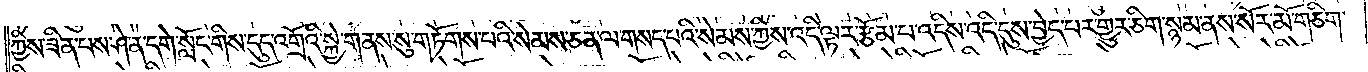ཀྱིས་ཟིན་པས་ཤེ་ན་དགེ་སློང་གིས་དུད་འགྲོའི་སྐྱེ་གནས་སུ་གཏོགས་པའི་སེམས་ཅན་ལ་གསད་པའི་སེམས་ཀྱིས་འདི་ལྟར་རྩོམ་པ་འདིས་འདི་དུས་བྱེད་པར་གྱུར་ཅིག་སྙམ་ནས་སོར་མོ་གཅིག་
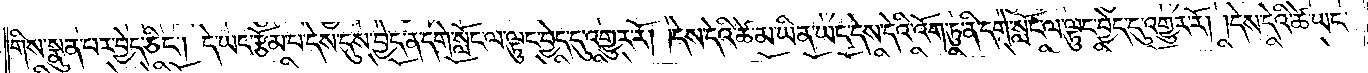གིས་སྣུན་པར་བྱེད་ཅིང༌། དེ་ཡང་རྩོམ་པ་དེས་དུས་བྱེད་ན་དགེ་སློང་ལ་ལྟུང་བྱེད་དུ་འགྱུར་རོ། །དེས་དེའི་ཚེ་མ་ཡིན་ཡང་དེས་དེའི་འོག་ཏུ་ནི་དགེ་སློང་ལ་ལྟུང་བྱེད་དུ་འགྱུར་རོ། །དེས་དེའི་ཚེ་ཡང་
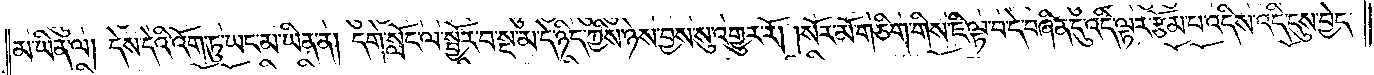མ་ཡིན་ལ། དེས་དེའི་འོག་ཏུ་ཡང་མ་ཡིན་ན། དགེ་སློང་ལ་སྦྱོར་བ་སྔ་མ་དེ་ཉིད་ཀྱིས་ཉེས་བྱས་སུ་འགྱུར་རོ། །སོར་མོ་གཅིག་གིས་ཇི་ལྟ་བ་དེ་བཞིན་དུ་འདི་ལྟར་རྩོམ་པ་འདིས་འདི་དུས་བྱེད་
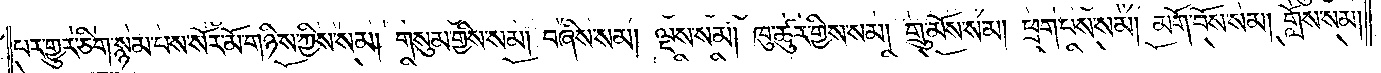པར་གྱུར་ཅིག་སྙམ་པས་སོར་མོ་གཉིས་ཀྱིས་སམ། གསུམ་གྱིས་སམ། བཞིས་སམ། ལྔས་སམ། ཁུ་ཚུར་གྱིས་སམ། གྲུ་མོས་སམ། ཕྲག་པས་སམ། མགོ་བོས་སམ། གློས་སམ།
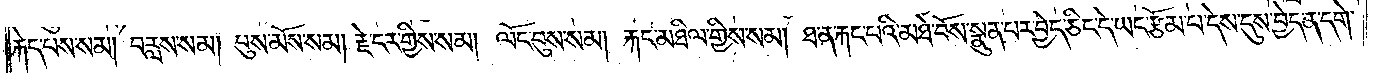རྐེད་པས་སམ། བརླས་སམ། པུས་མོས་སམ། རྗེ་ངར་གྱིས་སམ། ལོང་བུས་སམ། རྐང་མཐིལ་གྱིས་སམ། ཐ་ན་རྐང་པའི་མཐེ་བོས་སྣུན་པར་བྱེད་ཅིང་དེ་ཡང་རྩོམ་པ་དེས་དུས་བྱེད་ན་དགེ་
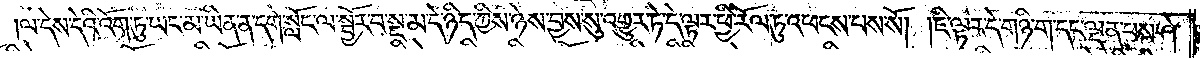ལ་དེས་དེའི་འོག་ཏུ་ཡང་མ་ཡིན་ན་དགེ་སློང་ལ་སྦྱོར་བ་སྔ་མ་དེ་ཉིད་ཀྱིས་ཉེས་བྱས་སུ་འགྱུར་ཏེ་དེ་ལྟར་ཕྱི་རོལ་ཏུ་འཕངས་པས་སོ། །ཇི་ལྟར་དེ་གཉི་ག་དང་ལྡན་པས་ཤེ་
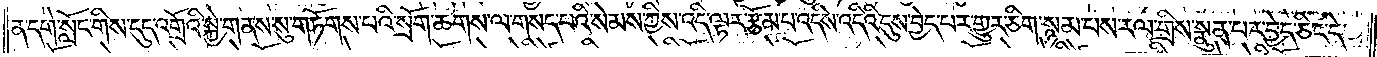ན་དགེ་སློང་གིས་དུད་འགྲོའི་སྐྱེ་གནས་སུ་གཏོགས་པའི་སྲོག་ཆགས་ལ་གསད་པའི་སེམས་ཀྱིས་འདི་ལྟར་རྩོམ་པ་འདིས་འདིའི་དུས་བྱེད་པར་གྱུར་ཅིག་སྙམ་པས་རལ་གྲིས་སྣུན་པར་བྱེད་ཅིང་དེ་
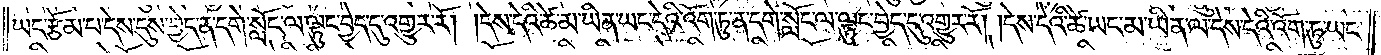ཡང་རྩོམ་པ་དེས་དུས་བྱེད་ན་དགེ་སློང་ལ་ལྟུང་བྱེད་དུ་འགྱུར་རོ། །དེས་དེའི་ཚེ་མ་ཡིན་ཡང་དེའི་འོག་ཏུ་ན་དགེ་སློང་ལ་ལྟུང་བྱེད་དུ་འགྱུར་རོ། །དེས་དེའི་ཚེ་ཡང་མ་ཡིན་ལ་དེས་དེའི་འོག་ཏུ་ཡང་
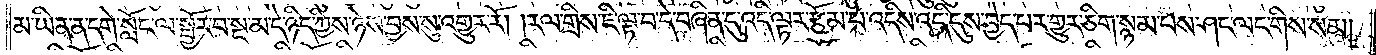མ་ཡིན་ན་དགེ་སློང་ལ་སྦྱོར་བ་སྔ་མ་དེ་ཉིད་ཀྱིས་ཉེས་བྱས་སུ་འགྱུར་རོ། །རལ་གྲིས་ཇི་ལྟ་བ་དེ་བཞིན་དུ་འདི་ལྟར་རྩོམ་པ་འདིས་འདི་དུས་བྱེད་པར་གྱུར་ཅིག་སྙམ་པས་ཤང་ལང་གིས་སམ།
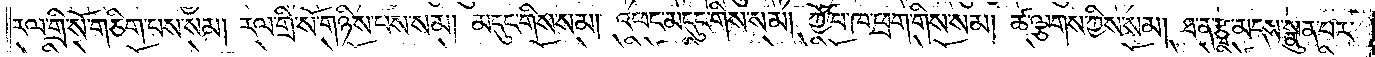རལ་གྲི་སོ་གཅིག་པས་སམ། རལ་གྲི་སོ་གཉིས་པས་སམ། མདུང་གིས་སམ། འཕང་མདུང་གིས་སམ། ཀྱོ་བ་ཁ་ཕྲག་གིས་སམ། ཚ་ལྕགས་ཀྱིས་སམ། ཐ་ན་རྩྭ་མདས་སྣུན་པར་
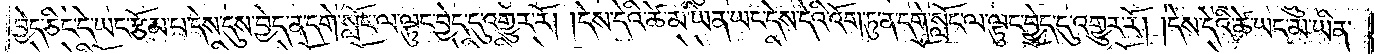བྱེད་ཅིང་དེ་ཡང་རྩོམ་པ་དེས་དུས་བྱེད་ན་དགེ་སློང་ལ་ལྟུང་བྱེད་དུ་འགྱུར་རོ། །དེས་དེའི་ཚེ་མ་ཡིན་ཡང་དེས་དེའི་འོག་ཏུ་ན་དགེ་སློང་ལ་ལྟུང་བྱེད་དུ་འགྱུར་རོ། །དེས་དེའི་ཚེ་ཡང་མ་ཡིན་
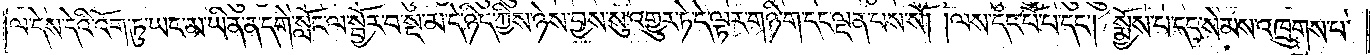ལ་དེས་དེའི་འོག་ཏུ་ཡང་མ་ཡིན་ན་དགེ་སློང་ལ་སྦྱོར་བ་སྔ་མ་དེ་ཉིད་ཀྱིས་ཉེས་བྱས་སུ་འགྱུར་ཏེ་དེ་ལྟར་གཉི་ག་དང་ལྡན་པས་སོ། །ལས་དང་པོ་པ་དང༌། སྨྱོས་པ་དང་སེམས་འཁྲུགས་པ་
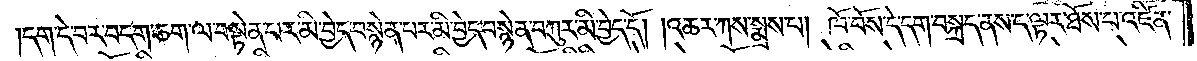དག་དེ་བར་བདག་ཅག་ལ་བསྟེན་པར་མི་བྱེད་བསྙེན་པར་མི་བྱེད་བསྙེན་བཀུར་མི་བྱེད་དོ། །འཆར་ཀས་སྨྲས་པ། ཁོ་བོས་དེ་དག་བསྐྲད་ནས་ད་ལྟར་ཐོས་པ་འཛིན་
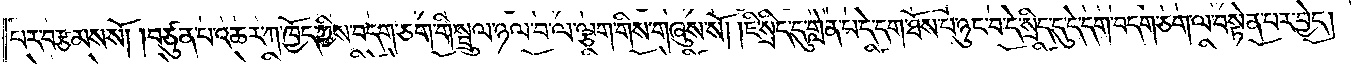པར་བརྩམས་སོ། །བཙུན་པ་འཆར་ཀ་ཁྱོད་ཀྱིས་བདག་ཅག་གི་སྦྲུལ་ཉལ་བ་ལ་ལྕག་གིས་གཞུས་སོ། །ཇི་སྲིད་དུ་གླེན་པ་དེ་དག་ཐོས་པ་ཉུང་བ་དེ་སྲིད་དུ་དེ་དག་བདག་ཅག་ལ་བསྟེན་པར་བྱེད།
